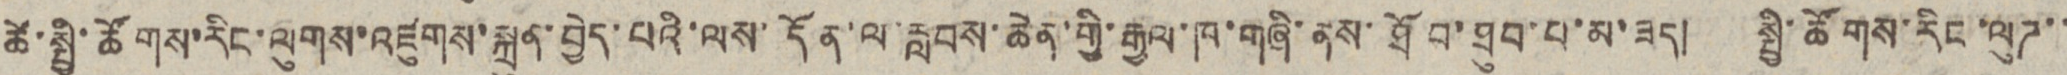ཚེ་སྤྱི་ཚོགས་རིང་ལུགས་འཛུགས་སྐྲུན་བྱེད་པའི་ལས་དོན་ལ་རླབས་ཆེན་གྱི་རྒྱལ་ཁ་གཞི་ནས་ཐོབ་ཐུབ་པ་མ་ཟད། སྤྱི་ཚོགས་རིང་ལུཊ་་
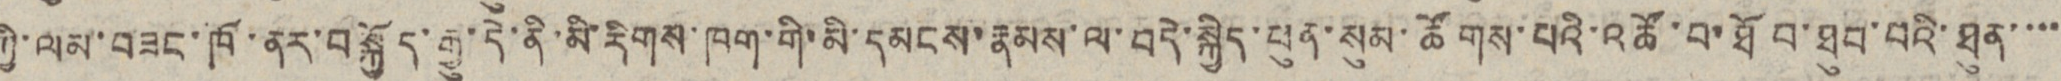ཀྱི་ལམ་བཟང་ཁོ་ནར་བསྐྱོད་རྒྱུ་དེ་ནི་མི་རིགས་ཁག་གི་མི་དམངས་རྣམས་ལ་བདེ་སྐྱིད་ཕུན་སུམ་ཚོགས་པའི་འཚོ་བ་ཐོབ་ཐུབ་པའི་ཐུན་་་་
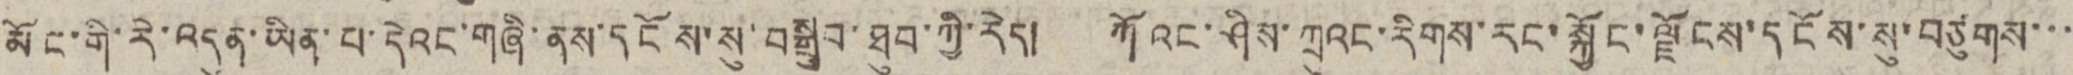མོང་གི་རེ་འདུན་ཡིན་པ་དེའང་གཞི་ནས་དངོས་སུ་བསྒྲུབ་ཐུབ་ཀྱི་རེད། ཀོའང་ཤིས་ཀྲུའང་རིགས་རང་སྐྱོང་ལྗོངས་དངོས་སུ་བཙུགས་་་
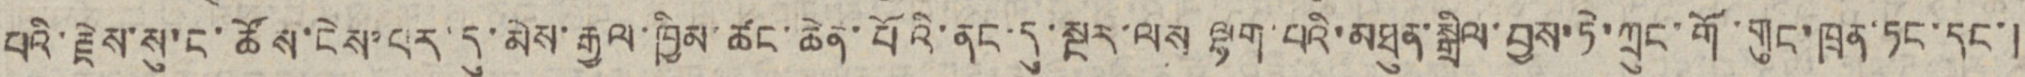པའི་རྗེས་སུ་ངོ་ཚོས་ངེས་པར་དུ་མེས་རྒྱལ་ཁྱིམ་ཚང་ཆེན་པོའི་ནང་དུ་སྔར་ལས ལྷག་པའི་མཐུན་སྒྲིལ་བྱས་ཏེ་ཀྲུང་གོ་གུང་ཁྲན་ཏང་དང་།
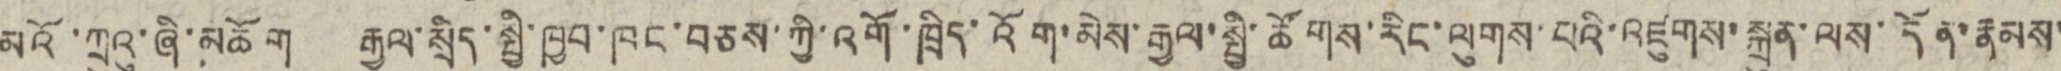མའོ་ཀྲུའུ་ཞི་མཆོག རྒྱལ་སྲིད་སྤྱི་ཁྱབ་ཁང་བཅས་ཀྱི་འགོ་ཁྲིད་འོག་མེས་རྒྱལ་སྤྱི་ཚོགས་རིང་ལུགས་པའི་འཛུགས་སྐྲུན་ལས་དོན་རྣམས་
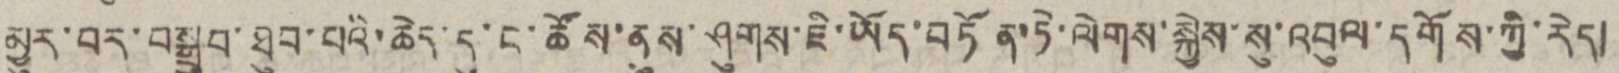མྱུར་བར་བསྒྲུབ་ཐུབ་པའི་ཆེད་དུ་ང་ཚོས་ནུས་ཤུགས་ཇི་ཡོད་བཏོན་ཏེ་ལེགས་སྐྱེས་སུ་འབུལ་དགོས་ཀྱི་རེད།
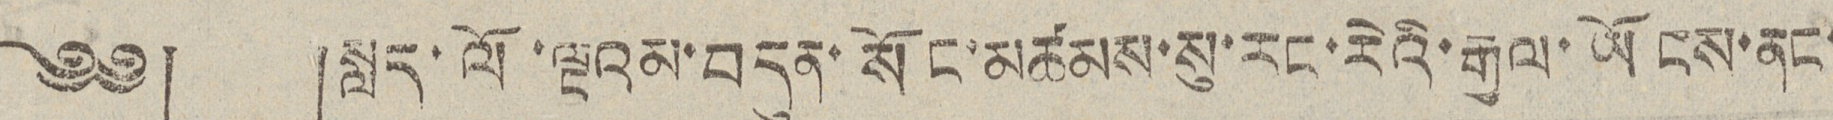༄༅། །སླད་ལོ་ལྔའམ་བདུན་སོང་མཚམས་སུ་རང་རེའི་རྒྱལ་ཡོངས་ནང་
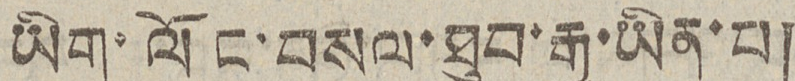ཡིག་ལོང་བསལ་ཐུབ་རྒྱུ་ཡིན་པ།
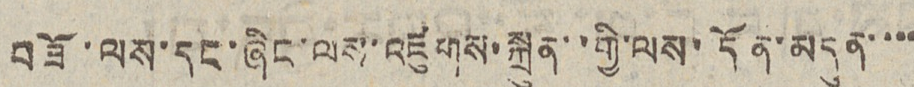བཟོ་ལས་དང་ཞིང་ལས་འཛུགས་སྐྲུན་་གྱི་ལས་དོན་མདུན་་་་
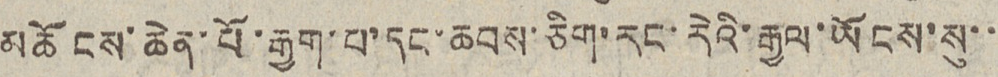མཆོངས་ཆེན་པོ་རྒྱག་པ་དང་ཆབས་ཅིག་རང་རེའི་རྒྱལ་ཡོངས་སུ་་
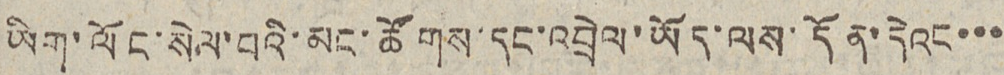ཡིག་ལོང་སེལ་བའི་མང་ཚགོས་དང་འབྲེལ་ཡོད་ལས་དོན་དེའང་་་
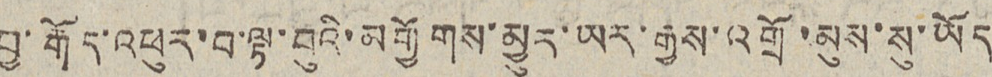བྱ་རྒོད་འཕུར་བ་ལྟ་བུའི་མགྱོགས་མྱུར་ཡར་རྒྱས་འགྲོ་མུས་སུ་ཡོད
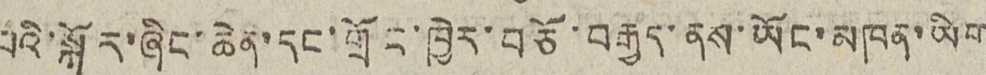པའི་སྐོར་ཞིང་ཆེན་དང་གྲོང་ཁྱེར་བཅོ་བརྒྱད་ནས་ཡོང་མཁན་ཡིག
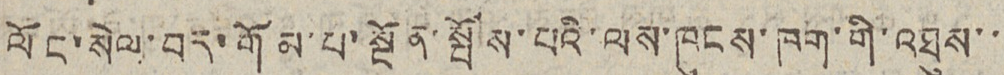ལོང་སེལ་བར་གོམ་པ་སྔོན་སྤོས་པའི་ལས་ཁུངས་ཁག་གི་འཐུས་་
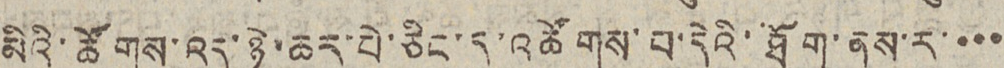མིའི་ཚགོས་འདུ་ཉེ་ཆར་པེ་ཅིང་དུ་འཚོགས་པ་དེའི་ཐོག་ནས་ར་་་་
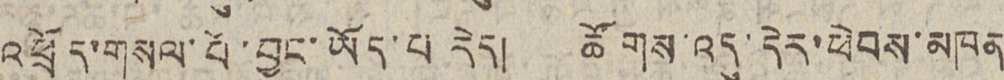འཕྲོད་གསལ་པོ་བྱུང་ཡོད་པ རེད། ཚོགས་འདུ་དེར་ཕེབས་མཁན
